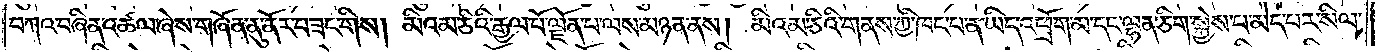བཀའ་བཞིན་འཚལ་ཞེས་གཞོན་ནུ་ནོར་བཟང་གིས། མིའམ་ཅིའི་རྒྱལ་པོ་ལྗོན་པ་ལས་མཉན་ནས། མིའམ་ཅིའི་གནས་ཀྱི་ཁང་པ་ན་ཡིད་འཕྲོག་མ་དང་ལྷན་ཅིག་སྐྱེས་པ་མེད་པར་སིལ་
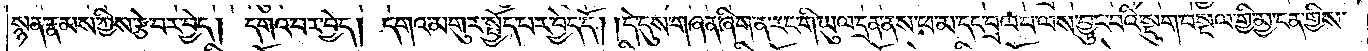སྙན་རྣམས་ཀྱིས་རྩེ་བར་བྱེད། དགའ་བར་བྱེད། དགའ་མགུར་སྤྱོད་པར་བྱེད་དོ། །དེ་དུས་གཞན་ཞིག་ན་རང་གི་ཡུལ་དྲན་ནས་ཕ་མ་དང་བྲལ་བ་ལས་བྱུང་བའི་སྡུག་བསྔལ་གྱི་མྱ་ངན་གྱིས་
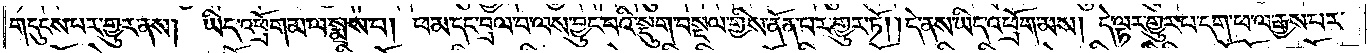གདུངས་པར་གྱུར་ནས། ཡིད་འཕྲོག་མ་ལ་སྨྲས་པ། ཕ་མ་དང་བྲལ་བ་ལས་བྱུང་བའི་སྡུག་བསྔལ་གྱིས་ནོན་པར་གྱུར་ཏོ། །དེ་ནས་ཡིད་འཕྲོག་མས། དེ་ལྟར་གྱུར་པ་དག་ཕ་ལ་རྒྱས་པར་
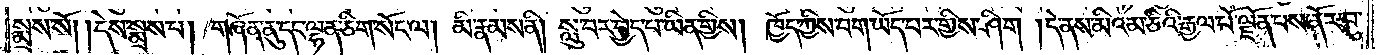སྨྲས་སོ། །དེས་སྨྲས་པ། གཞོན་ནུ་དང་ལྷན་ཅིག་སོང་ལ། མི་རྣམས་ནི། སླུ་བར་བྱེད་པ་ཡིན་གྱིས། ཁྱོད་ཀྱིས་བག་ཡོད་པར་གྱིས་ཤིག །དེ་ནས་མིའམ་ཅིའི་རྒྱལ་པོ་ལྗོན་པས་ནོར་བུ་
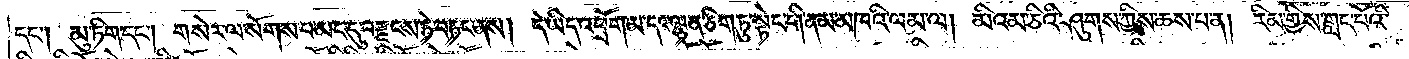དང༌། མུ་ཏིག་དང༌། གསེར་ལ་སོགས་པ་མང་དུ་བརྫངས་ཏེ་བཏང་ནས། དེ་ཡིད་འཕྲོག་མ་དང་ལྷན་ཅིག་ཏུ་སྟེང་གི་ནམ་མཁའི་ལམ་ལ། མིའམ་ཅིའི་ཤུགས་ཀྱིས་ཆས་པ་ན། རིམ་གྱིས་གླང་པོའི་
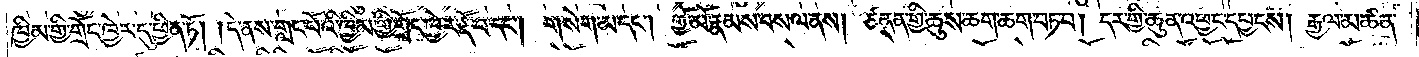ཁྱིམ་གྱི་གྲོང་ཁྱེར་དུ་ཕྱིན་ཏོ། །དེ་ནས་གླང་པོའི་ཁྱིམ་གྱི་གྲོང་ཁྱེར་རྡོ་བ་དང༌། གསེག་མ་དང༌། གྱོ་མོ་རྣམས་བསལ་ནས། ཙནྡན་གྱི་ཆུས་ཆག་ཆག་བཏབ། དར་གྱི་ཆུན་འཕྱང་དཔྱངས། རྒྱལ་མཚན་
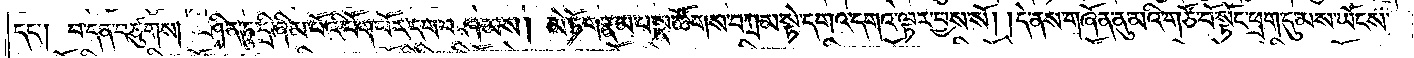དང༌། བ་དན་བཙུགས། ཤིན་ཏུ་དྲི་ཞིམ་པོའི་པོག་པོར་ངག་བཤམས། མེ་ཏོག་རྣམ་པ་སྣ་ཚོགས་བཀྲམ་སྟེ་དགའ་དགའ་ལྟར་བྱས་སོ། །དེ་ནས་གཞོན་ནུ་མའི་གཙོ་བོ་སྟོང་ཕྲག་དུ་མས་ཡོངས་
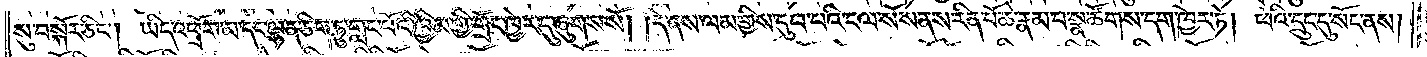སུ་བསྐོར་ཅིང༌། ཡིད་འཕྲོག་མ་དང་ལྷན་ཅིག་ཏུ་གླང་པོའི་ཁྱིམ་གྱི་གྲོང་ཁྱེར་དུ་ཞུགས་སོ། །དེ་ནས་ལམ་གྱིས་དུབ་པའི་ངལ་སོས་ནས་རིན་པོ་ཆེ་རྣམ་པ་སྣ་ཚོགས་དག་ཁྱེར་ཏེ། ཕའི་དྲུང་དུ་སོང་ནས།
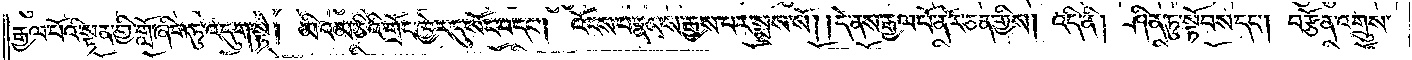རྒྱལ་པོའི་སྟན་གྱི་གློ་ཞིག་ཏུ་འདུག་སྟེ། མིའམ་ཅིའི་གྲོང་ཁྱེར་དུ་སོང་བ་དང༌། འོངས་པ་རྣམས་རྒྱས་པར་སྨྲས་སོ། །དེ་ནས་རྒྱལ་པོ་ནོར་ཅན་གྱིས། འདི་ནི། ཤིན་ཏུ་སྟོབས་དང༌། བརྩོན་འགྲུས་
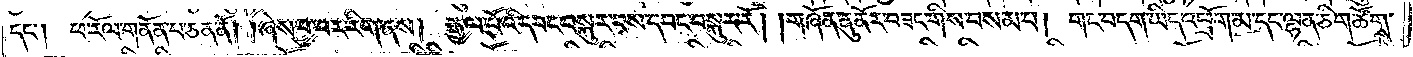དང༌། ཕ་རོལ་གནོན་པ་ཅན་ནོ། །ཞེས་བྱ་བར་རིག་ནས།<gap>རྒྱལ་པོའི་དབང་བསྐུར་བས་དབང་བསྐུར་རོ། །གཞོན་ནུ་ནོར་བཟང་གིས་བསམ་པ། གང་བདག་ཡིད་འཕྲོག་མ་དང་ལྷན་ཅིག་ཚོགས་
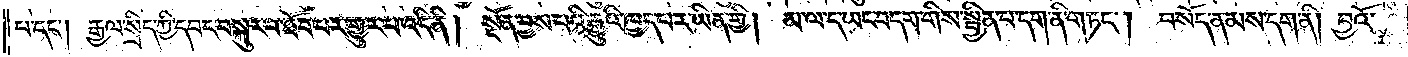པ་དང༌། རྒྱལ་སྲིད་ཀྱི་དབང་བསྐུར་བ་ཐོབ་པར་གྱུར་པ་འདི་ནི། སྔོན་བྱས་པའི་རྒྱུའི་ཁྱད་པར་ཡིན་གྱི། མ་ལ་ད་ཡང་བདག་གིས་སྦྱིན་པ་དག་ནི་གཏང༌། བསོད་ནམས་དག་ནི། བྱའོ་
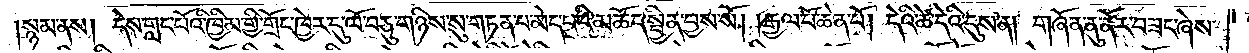སྙམ་ནས། དེས་གླང་པོའི་ཁྱིམ་གྱི་གྲོང་ཁྱེར་དུ་ལོ་བཅུ་གཉིས་སུ་གཏན་པ་མེད་པའི་མཆོད་སྦྱིན་བྱས་སོ། །རྒྱལ་པོ་ཆེན་པོ། དེའི་ཚེ་དེའི་དུས་ན། གཞོན་ནུ་ནོར་བཟང་ཞེས་
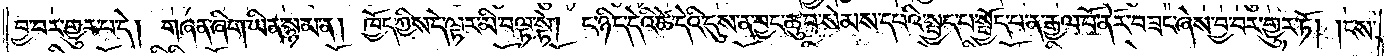བྱ་བར་གྱུར་པ་དེ། གཞན་ཞིག་ཡིན་སྙམ་ན། ཁྱོད་ཀྱིས་དེ་ལྟར་མི་བལྟ་སྟེ། ང་ཉིད་དེའི་ཚེ་དེའི་དུས་ན་བྱང་ཆུབ་སེམས་དཔའི་སྤྱད་པ་སྤྱོད་པ་ན་རྒྱལ་པོ་ནོར་བཟང་ཞེས་བྱ་བར་གྱུར་ཏོ། །ངས་
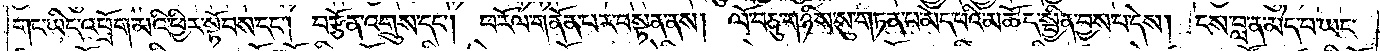གང་ཡིད་འཕྲོག་མའི་ཕྱིར་སྟོབས་དང༌། བརྩོན་འགྲུས་དང༌། ཕ་རོལ་གནོན་པར་བསྟན་ནས། ལོ་བཅུ་གཉིས་སུ་གཏན་པ་མེད་པའི་མཆོད་སྦྱིན་བྱས་པ་དེས། ངས་བླ་ན་མེད་པ་ཡང་
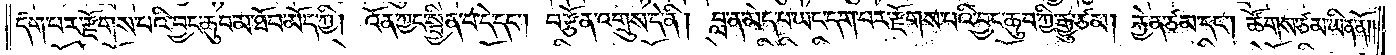དག་པར་རྫོགས་པའི་བྱང་ཆུབ་མ་ཐོབ་མོད་ཀྱི། འོན་ཀྱང་སྦྱིན་པ་དེ་དང༌། བརྩོན་འགྲུས་དེ་ནི། བླ་ན་མེད་པ་ཡང་དག་པར་རྫོགས་པའི་བྱང་ཆུབ་ཀྱི་རྒྱུ་ཙམ། རྐྱེན་ཙམ་དང༌། ཚོགས་ཙམ་ཡིན་ནོ༎
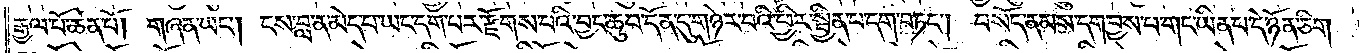རྒྱལ་པོ་ཆེན་པོ། གཞན་ཡང༌། ངས་བླ་ན་མེད་པ་ཡང་དག་པར་རྫོགས་པའི་བྱང་ཆུབ་དོན་དུ་གཉེར་བའི་ཕྱིར་སྦྱིན་པ་དག་བཏང༌། བསོད་ནམས་དག་བྱས་པ་གང་ཡིན་པ་དེ་ཉོན་ཅིག།
